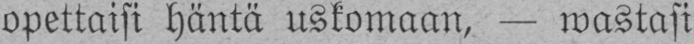opettaisi häntä uskomaan, — wastasi
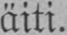äiti.
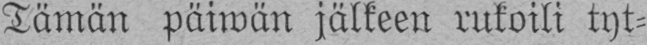Tämän päiwän jälkeen rukoili tyt-
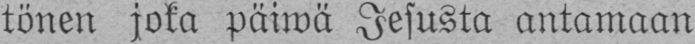tönen joka päiwä Jesusta antamaan
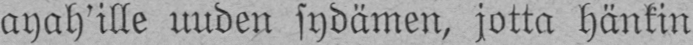ayah'ille uuden sydämen, jotta hänkin
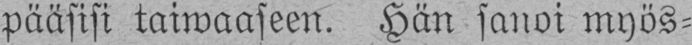pääsisi taiwaaseen. Hän sanoi myös-
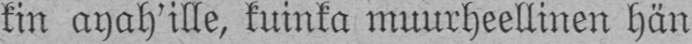kin ayah'ille, kuinka muurheellinen hän
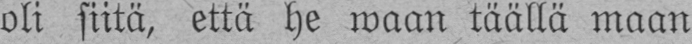oli siitä, että he waan täällä maan
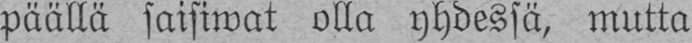päällä saisiwat olla yhdessä, mutta
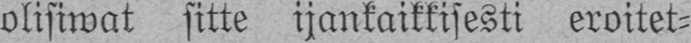olisiwat sitte ijankaikkisesti eroitet-
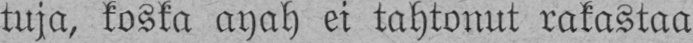tuja, koska ayah ei tahtonut rakastaa
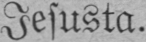Jesusta.
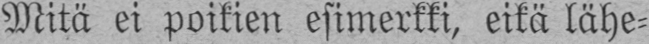Mitä ei poikien esimerkki, eikä lähe-
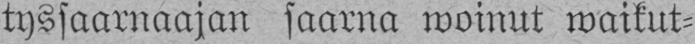tyssaarnaajan saarna woinut waikut-
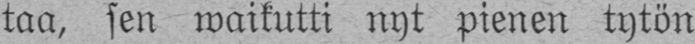taa, sen waikutti nyt pienen tytön
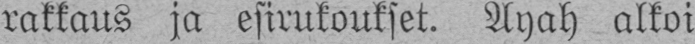rakkaus ja esirukoukset. Ayah alkoi
